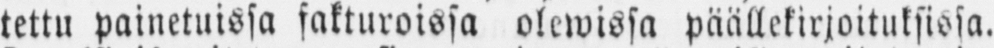tettu painetuissa fakturoissa olewissa päällekirjoituksissa.
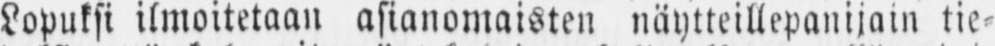Lopuksi ilmoitetaan asianomaisten näytteillepanijain tie-
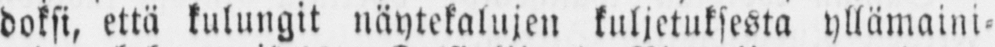doksi, että kulungit näytekalujen kuljetuksesta yllämaini-
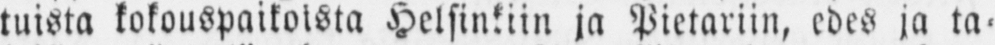tuista kokouspaikoista Helsinkiin ja Pietariin, edes ja ta-
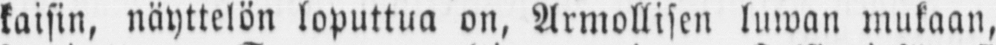kaisin, näyttelön loputtua on, Armollisen luwan mukaan,
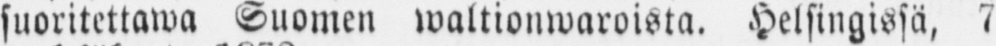suoritettawa Suomen waltionwaroista. Helsingissä, 7
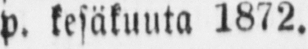p. kesäkuuta 1872.
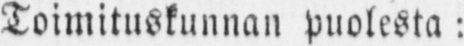Toimituskunnan puolesta:
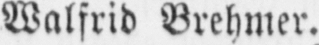Walfrid Brehmer.
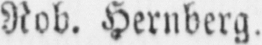Rob. Hernberg.
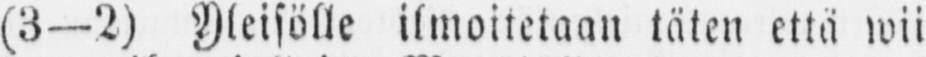(3 —2) Yleisölle ilmoitetaan täten että wii-
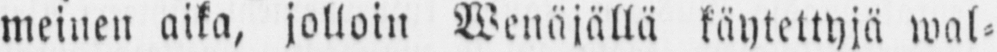meinen aika, jolloin Wenäjällä käytettyjä wal-
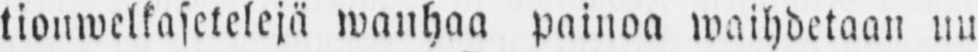tionwelkasetelejä wanhaa painoa waihdetaan uu-
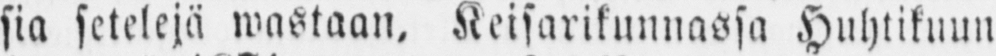sia setelejä wastaan. Keisarikunnassa Huhtikuun
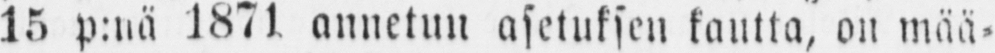15 p:nä 1871 annetun asetuksen kautta, on mää-
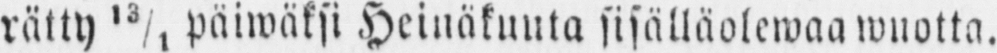rätty 13/4 päiwäksi Heinäkuuta sisälläolewaa wuotta.
